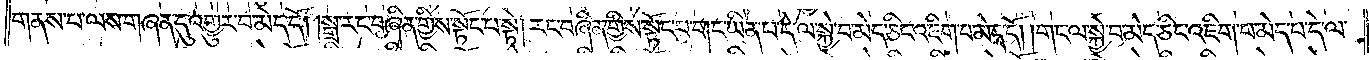གནས་པ་ལས་གཞན་དུ་འགྱུར་བ་མེད་དོ། །སྒྲ་རང་བཞིན་གྱིས་སྟོང་པ་སྟེ། རང་བཞིན་གྱིས་སྟོང་པ་གང་ཡིན་པ་དེ་ལ་སྐྱེ་བ་མེད་ཅིང་འཇིག་པ་མེད་དོ། །གང་ལ་སྐྱེ་བ་མེད་ཅིང་འཇིག་པ་མེད་པ་དེ་ལ་
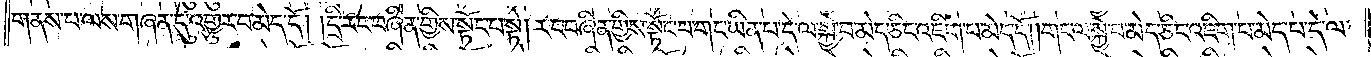གནས་པ་ལས་གཞན་དུ་འགྱུར་བ་མེད་དོ། །དྲི་རང་བཞིན་གྱིས་སྟོང་པ་སྟེ། རང་བཞིན་གྱིས་སྟོང་པ་གང་ཡིན་པ་དེ་ལ་སྐྱེ་བ་མེད་ཅིང་འཇིག་པ་མེད་དོ། །གང་ལ་སྐྱེ་བ་མེད་ཅིང་འཇིག་པ་མེད་པ་དེ་ལ་
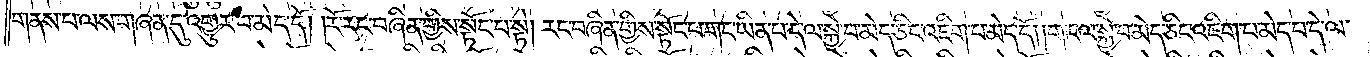གནས་པ་ལས་གཞན་དུ་འགྱུར་བ་མེད་དོ། །རོ་རང་བཞིན་གྱིས་སྟོང་པ་སྟེ། རང་བཞིན་གྱིས་སྟོང་པ་གང་ཡིན་པ་དེ་ལ་སྐྱེ་བ་མེད་ཅིང་འཇིག་པ་མེད་དོ། །གང་ལ་སྐྱེ་བ་མེད་ཅིང་འཇིག་པ་མེད་པ་དེ་ལ་
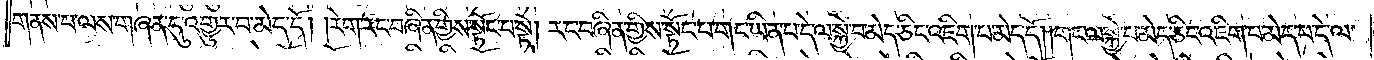གནས་པ་ལས་གཞན་དུ་འགྱུར་བ་མེད་དོ། །རེག་རང་བཞིན་གྱིས་སྟོང་པ་སྟེ། རང་བཞིན་གྱིས་སྟོང་པ་གང་ཡིན་པ་དེ་ལ་སྐྱེ་བ་མེད་ཅིང་འཇིག་པ་མེད་དོ། །གང་ལ་སྐྱེ་བ་མེད་ཅིང་འཇིག་པ་མེད་པ་དེ་ལ་
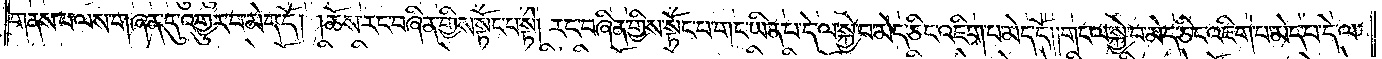གནས་པ་ལས་གཞན་དུ་འགྱུར་བ་མེད་དོ། །ཆོས་རང་བཞིན་གྱིས་སྟོང་པ་སྟེ། རང་བཞིན་གྱིས་སྟོང་པ་གང་ཡིན་པ་དེ་ལ་སྐྱེ་བ་མེད་ཅིང་འཇིག་པ་མེད་དོ། །གང་ལ་སྐྱེ་བ་མེད་ཅིང་འཇིག་པ་མེད་པ་དེ་ལ་
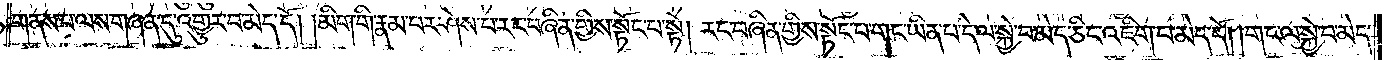གནས་པ་ལས་གཞན་དུ་འགྱུར་བ་མེད་དོ། །མིག་གི་རྣམ་པར་ཤེས་པ་རང་བཞིན་གྱིས་སྟོང་པ་སྟེ། རང་བཞིན་གྱིས་སྟོང་པ་གང་ཡིན་པ་དེ་ལ་སྐྱེ་བ་མེད་ཅིང་འཇིག་པ་མེད་དོ། །གང་ལ་སྐྱེ་བ་མེད་
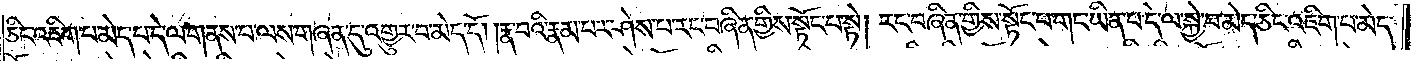ཅིང་འཇིག་པ་མེད་པ་དེ་ལ་གནས་པ་ལས་གཞན་དུ་འགྱུར་བ་མེད་དོ། །རྣ་བའི་རྣམ་པར་ཤེས་པ་རང་བཞིན་གྱིས་སྟོང་པ་སྟེ། རང་བཞིན་གྱིས་སྟོང་པ་གང་ཡིན་པ་དེ་ལ་སྐྱེ་བ་མེད་ཅིང་འཇིག་པ་མེད་
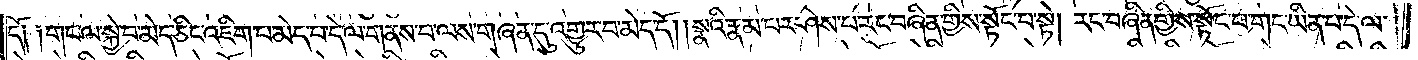དོ། །གང་ལ་སྐྱེ་བ་མེད་ཅིང་འཇིག་པ་མེད་པ་དེ་ལ་གནས་པ་ལས་གཞན་དུ་འགྱུར་བ་མེད་དོ། །སྣའི་རྣམ་པར་ཤེས་པ་རང་བཞིན་གྱིས་སྟོང་པ་སྟེ། རང་བཞིན་གྱིས་སྟོང་པ་གང་ཡིན་པ་དེ་ལ་
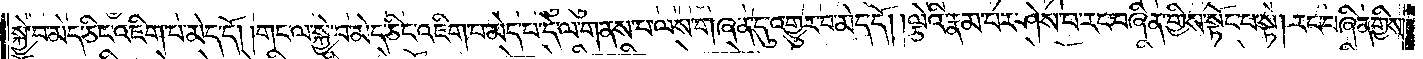སྐྱེ་བ་མེད་ཅིང་འཇིག་པ་མེད་དོ། །གང་ལ་སྐྱེ་བ་མེད་ཅིང་འཇིག་པ་མེད་པ་དེ་ལ་གནས་པ་ལས་གཞན་དུ་འགྱུར་བ་མེད་དོ། །ལྕེའི་རྣམ་པར་ཤེས་པ་རང་བཞིན་གྱིས་སྟོང་པ་སྟེ། རང་བཞིན་གྱིས་
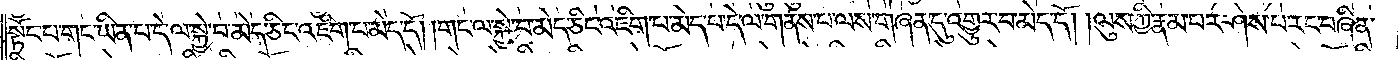སྟོང་པ་གང་ཡིན་པ་དེ་ལ་སྐྱེ་བ་མེད་ཅིང་འཇིག་པ་མེད་དོ། །གང་ལ་སྐྱེ་བ་མེད་ཅིང་འཇིག་པ་མེད་པ་དེ་ལ་གནས་པ་ལས་གཞན་དུ་འགྱུར་བ་མེད་དོ། །ལུས་ཀྱི་རྣམ་པར་ཤེས་པ་རང་བཞིན་
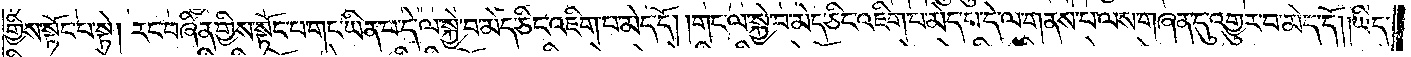གྱིས་སྟོང་པ་སྟེ། རང་བཞིན་གྱིས་སྟོང་པ་གང་ཡིན་པ་དེ་ལ་སྐྱེ་བ་མེད་ཅིང་འཇིག་པ་མེད་དོ། །གང་ལ་སྐྱེ་བ་མེད་ཅིང་འཇིག་པ་མེད་པ་དེ་ལ་གནས་པ་ལས་གཞན་དུ་འགྱུར་བ་མེད་དོ། །ཡིད་
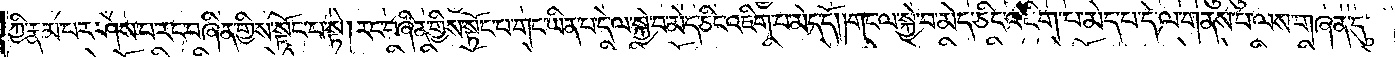ཀྱི་རྣམ་པར་ཤེས་པ་རང་བཞིན་གྱིས་སྟོང་པ་སྟེ། རང་བཞིན་གྱིས་སྟོང་པ་གང་ཡིན་པ་དེ་ལ་སྐྱེ་བ་མེད་ཅིང་འཇིག་པ་མེད་དོ། །གང་ལ་སྐྱེ་བ་མེད་ཅིང་འཇིག་པ་མེད་པ་དེ་ལ་གནས་པ་ལས་གཞན་དུ་
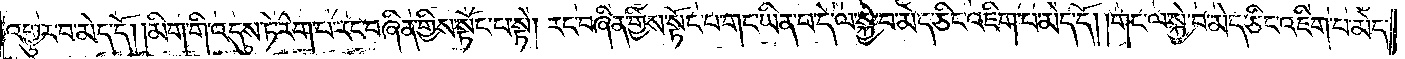འགྱུར་བ་མེད་དོ། །མིག་གི་འདུས་ཏེ་རེག་པ་རང་བཞིན་གྱིས་སྟོང་པ་སྟེ། རང་བཞིན་གྱིས་སྟོང་པ་གང་ཡིན་པ་དེ་ལ་སྐྱེ་བ་མེད་ཅིང་འཇིག་པ་མེད་དོ། །གང་ལ་སྐྱེ་བ་མེད་ཅིང་འཇིག་པ་མེད་
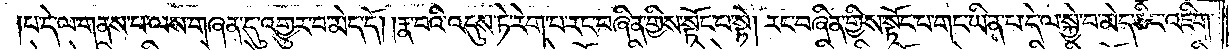པ་དེ་ལ་གནས་པ་ལས་གཞན་དུ་འགྱུར་བ་མེད་དོ། །རྣ་བའི་འདུས་ཏེ་རེག་པ་རང་བཞིན་གྱིས་སྟོང་པ་སྟེ། རང་བཞིན་གྱིས་སྟོང་པ་གང་ཡིན་པ་དེ་ལ་སྐྱེ་བ་མེད་ཅིང་འཇིག་
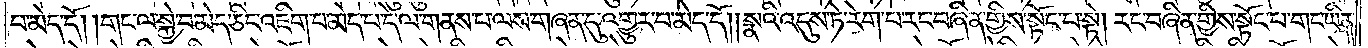པ་མེད་དོ། གང་ལ་སྐྱེ་བ་མེད་ཅིང་འཇིག་པ་མེད་པ་དེ་ལ་གནས་པ་ལས་གཞན་དུ་འགྱུར་བ་མེད་དོ། །སྣའི་འདུས་ཏེ་རེག་པ་རང་བཞིན་གྱིས་སྟོང་པ་སྟེ། རང་བཞིན་གྱིས་སྟོང་པ་གང་ཡིན་
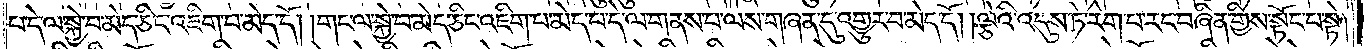པ་དེ་ལ་སྐྱེ་བ་མེད་ཅིང་འཇིག་པ་མེད་དོ། །གང་ལ་སྐྱེ་བ་མེད་ཅིང་འཇིག་པ་མེད་པ་དེ་ལ་གནས་པ་ལས་གཞན་དུ་འགྱུར་བ་མེད་དོ། །ལྕེའི་འདུས་ཏེ་རེག་པ་རང་བཞིན་གྱིས་སྟོང་པ་སྟེ།
